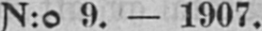N:o 9. — 1907.
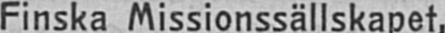Finska Missionssällskapet,
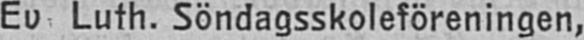Ev Luth. Söndagsskoleföreningen,
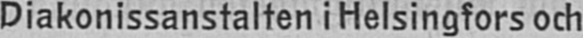Diakonissanstalten i Helsingfors och
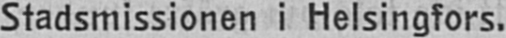Stadsmissionen i Helsingfors.
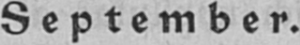September.
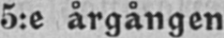5:e årgången
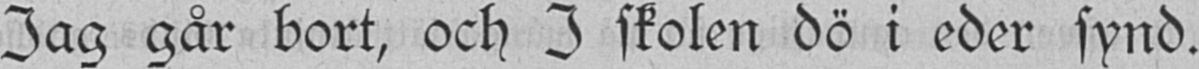Jag går bort, och I skolen dö i eder synd.
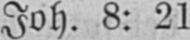Joh. 8: 21
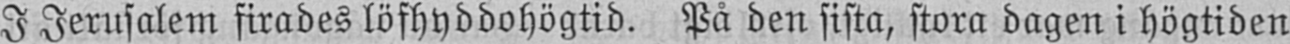I Jerusalem firades löfhyddohögtid. På den sista, stora dagen i högtiden
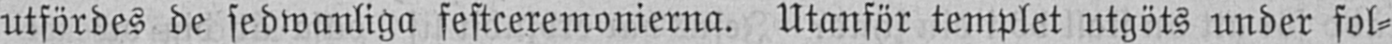utfördes de sedwanliga festceremonierna. Utanför templet utgöts under fol-
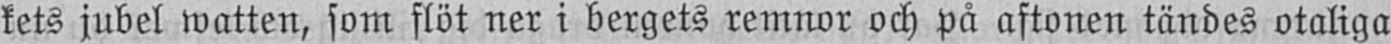kets jubel watten, som flöt ner i bergets remnor och på aftonen tändes otaliga
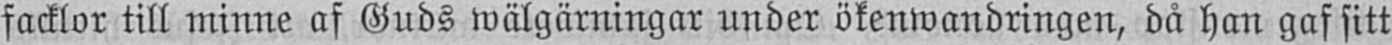facklor till minne af Guds wälgärningar under ökenwandringen, då han gaf sitt
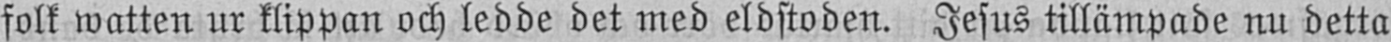folk watten ur klippan och ledde det med eldstoden. Jesus tillämpade nu detta
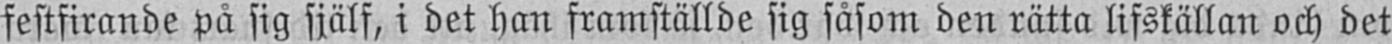festfirande på sig själf, i det han framställde sig såsom den rätta lifskällan och det
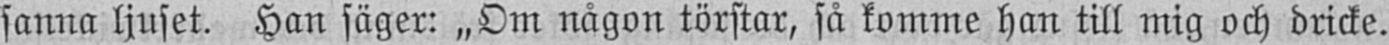sanna ljuset. Han säger: „Om någon törstar, så komme han till mig och dricke.
